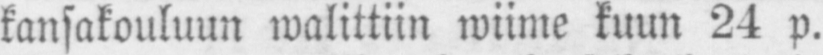kansakouluun walittiin wiime kuun 24 p.
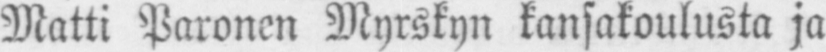Matti Paronen Myrskyn kansakoulusta ja
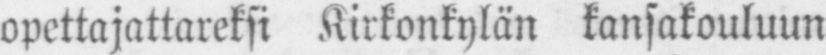opettajattareksi Kirkonkylän kansakouluun
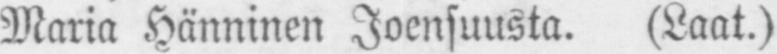Maria Hänninen Joensuusta. (Laat.)
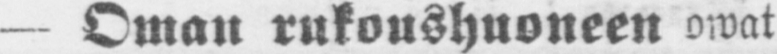— Oman rukoushuoneen owat
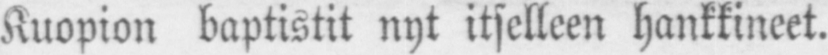Kuopion baptistit nyt itselleen hankkineet.
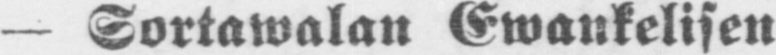— Sortawalan Ewankelisen
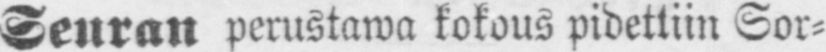Seuran perustawa kokous pidettiin Sor-
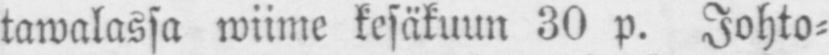tawalassa wiime kesäkuun 30 p. Johto-
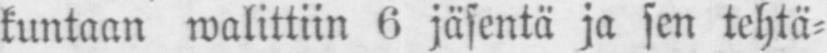kuntaan walittiin 6 jäsentä ja sen tehtä-
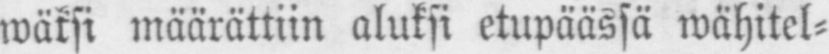wäksi määrättiin aluksi etupäässä wähitel-
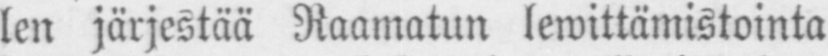len järjestää Raamatun lewittämistointa
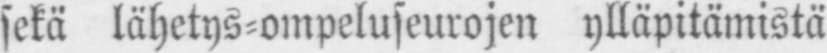sekä lähetys-ompeluseurojen ylläpitämistä
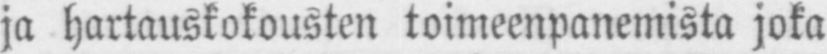ja hartauskokousten toimeenpanemista joka
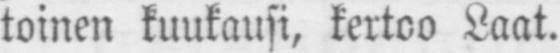toinen kuukausi, kertoo Laat.
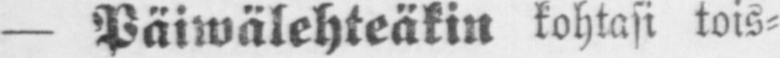— Päiwälehteäkin kohtasi tois-
